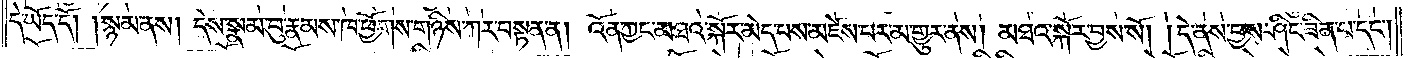དེ་ཡོད་དོ། །སྙམ་ནས། དེས་སྣམ་བུ་རྣམས་ཁ་ཕྱོགས་གཉིས་ཀར་བསྟན་ན། འོན་ཀྱང་མཐའ་སྐོར་མེད་པས་མཛེས་པར་མ་གྱུར་ནས། མཐའ་སྐོར་བྱས་སོ། །དེ་ནས་བྱས་ཤིང་ཟིན་པ་དང༌།
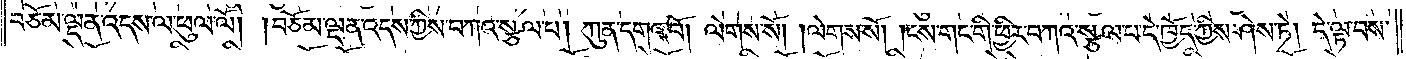བཅོམ་ལྡན་འདས་ལ་ཕུལ་ལོ། །བཅོམ་ལྡན་འདས་ཀྱིས་བཀའ་སྩལ་པ། ཀུན་དགའ་བོ། ལེགས་སོ། །ལེགས་སོ། །ངས་གང་གི་ཕྱིར་བཀའ་སྩལ་པ་དེ་ཁྱོད་ཀྱིས་ཤེས་ཏེ། དེ་ལྟ་བས་
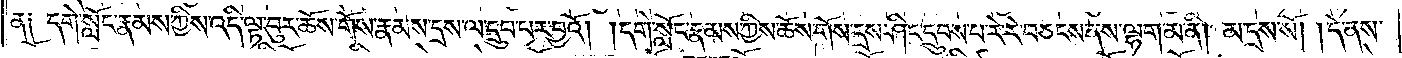ན། དགེ་སློང་རྣམས་ཀྱིས་འདི་ལྟ་བུར་ཆོས་གོས་རྣམས་དྲས་ལ་དྲུབ་པར་བྱའོ། །དགེ་སློང་རྣམས་ཀྱིས་ཆོས་གོས་དྲས་ཤིང་དྲུབས་པ་རེ་རེ་བཅངས་ནས་ལྷག་མ་ནི། མ་དྲས་སོ། །དེ་ནས་
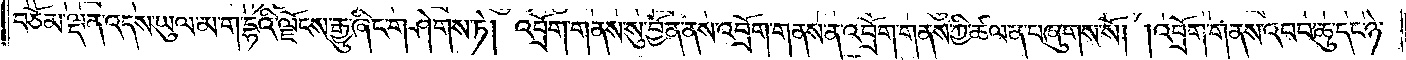བཅོམ་ལྡན་འདས་ཡུལ་མ་ག་དྷའི་ལྗོངས་རྒྱུ་ཞིང་གཤེགས་ཏེ། འབྲོག་གནས་སུ་བྱོན་ནས་འབྲོག་གནས་ན་འབྲོག་གནས་ཀྱི་ཚལ་ན་བཞུགས་སོ། །འབྲོག་གནས་འབབ་ཆུ་དང་ཉེ་
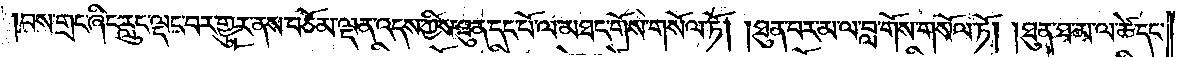བས་གྲང་ཞིང་རླུང་ལྡང་བར་གྱུར་ནས་བཅོམ་ལྡན་འདས་ཀྱིས་ཐུན་དང་པོ་ལ་མཐང་གོས་གསོལ་ཏོ། །ཐུན་བར་མ་ལ་བླ་གོས་གསོལ་ཏོ། །ཐུན་ཐ་མ་ལ་ཚེ་དང་
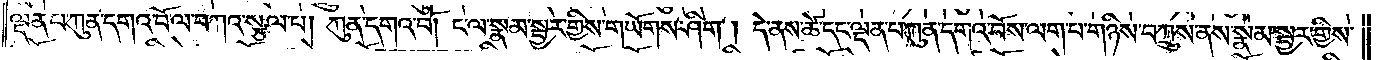ལྡན་པ་ཀུན་དགའ་བོ་ལ་བཀའ་སྩལ་པ། ཀུན་དགའ་བོ། ང་ལ་སྣམ་སྦྱར་གྱིས་གཡོགས་ཤིག། དེ་ནས་ཚེ་དང་ལྡན་པ་ཀུན་དགའ་བོས་ལག་པ་གཉིས་བཀྲུས་ནས་སྣམ་སྦྱར་གྱིས་
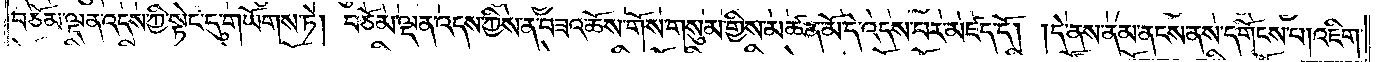བཅོམ་ལྡན་འདས་ཀྱི་སྟེང་དུ་གཡོགས་ཏེ། བཅོམ་ལྡན་འདས་ཀྱིས་ན་བཟའ་ཆོས་གོས་གསུམ་གྱིས་མཚན་མོ་དེ་འདས་པར་མཛད་དོ། །དེ་ནས་ནམ་ནངས་ནས་དགོངས་པ། འཇིག་
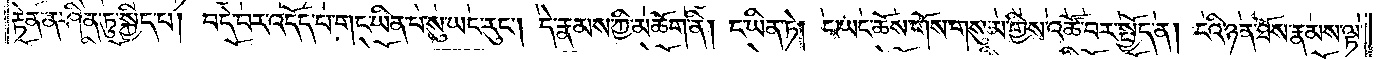རྟེན་ན་ཤིན་ཏུ་སྐྱིད་པ། བདེ་བར་འདོད་པ་གང་ཡིན་པ་སུ་ཡང་རུང༌། དེ་རྣམས་ཀྱི་མཆོག་ནི། ང་ཡིན་ཏེ། ང་ཡང་ཆོས་གོས་གསུམ་གྱིས་འཚོ་བར་སྤྱོད་ན། ངའི་ཉན་ཐོས་རྣམས་ལྟ་
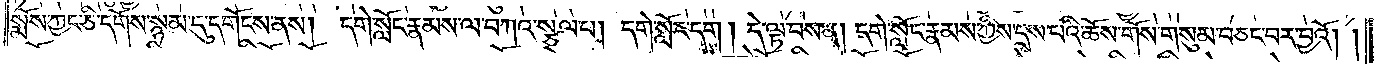སྨོས་ཀྱང་ཅི་དགོས་སྙམ་དུ་དགོངས་ནས། དགེ་སློང་རྣམས་ལ་བཀའ་སྩལ་པ། དགེ་སློང་དག། དེ་ལྟ་བས་ན། དགེ་སློང་རྣམས་ཀྱིས་དྲས་པའི་ཆོས་གོས་གསུམ་བཅང་བར་བྱའོ། །
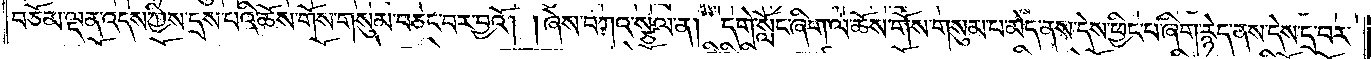བཅོམ་ལྡན་འདས་ཀྱིས་དྲས་པའི་ཆོས་གོས་གསུམ་བཅང་བར་བྱའོ། །ཞེས་བཀའ་སྩལ་ན། དགེ་སློང་ཞིག་ལ་ཆོས་གོས་གསུམ་པ་མེད་ནས་དེས་ཕྱིང་པ་ཞིག་རྙེད་ནས་དེས་དྲ་བར་
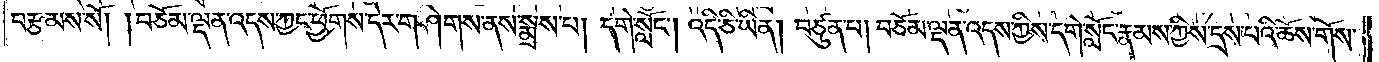བརྩམས་སོ། །བཅོམ་ལྡན་འདས་ཀྱང་ཕྱོགས་དེར་གཤེགས་ནས་སྨྲས་པ། དགེ་སློང༌། འདི་ཅི་ཡིན། བཙུན་པ། བཅོམ་ལྡན་འདས་ཀྱིས་དགེ་སློང་རྣམས་ཀྱིས་དྲས་པའི་ཆོས་གོས་
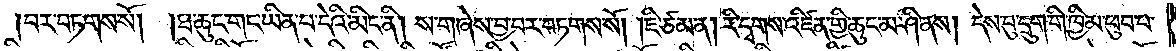བར་བཏགས་སོ། །ཐ་ཆུང་གང་ཡིན་པ་དེའི་མིང་ནི། ས་ག་ཞེས་བྱ་བར་བཏགས་སོ། །ཇི་ཙམ་ན། རི་དྭགས་འཛིན་གྱི་ཆུང་མ་ཤི་ནས། དེས་བུ་དྲུག་གི་ཁྱིམ་ཕུབ་པ་
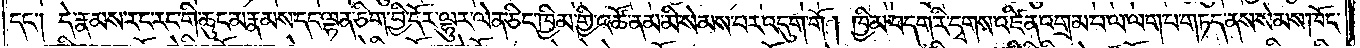དང༌། དེ་རྣམས་རང་རང་གི་ཆུང་མ་རྣམས་དང་ལྷན་ཅིག་བྱི་དོར་ལྷུར་ལེན་ཅིང་ཁྱིམ་གྱི་འཚོ་ནམ་མི་སེམས་པར་འདུག་གོ། ཁྱིམ་བདག་རི་དྭགས་འཛིན་འགྲམ་པ་ལ་ལག་པ་གཏད་ནས་སེམས་ཁོང་
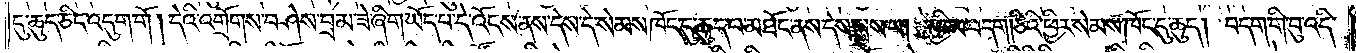དུ་ཆུད་ཅིང་འདུག་གོ། དེའི་འགྲོགས་བཤེས་བྲམ་ཟེ་ཞིག་ཡོད་པ་དེ་འོངས་ནས་དེས་དེ་སེམས་ཁོང་དུ་ཆུད་པ་མཐོང་ནས་དེས་སྨྲས་པ། ཁྱིམ་བདག། ཅིའི་ཕྱིར་སེམས་ཁོང་དུ་ཆུད། བདག་གི་བུ་འདི་
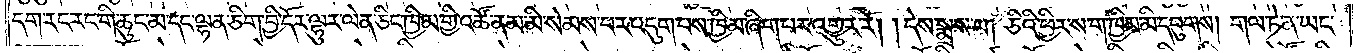དག་རང་རང་གི་ཆུང་མ་དང་ལྷན་ཅིག་བྱི་དོར་ལྷུར་ལེན་ཅིང་ཁྱིམ་གྱི་འཚོ་ནམ་མི་སེམས་པར་འདུག་པས་ཁྱིམ་ཞིག་པར་འགྱུར་རོ། །དེས་སྨྲས་པ། ཅིའི་ཕྱིར་ས་ག་ཁྱིམ་མི་དབུགས། གལ་ཏེ་ན་ཡང་
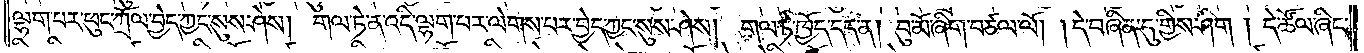ལྷག་པར་ཕུང་ཀྲོལ་བྱེད་ཀྱང་སུས་ཤེས། གལ་ཏེ་ན་འདི་ལྷག་པར་ལེགས་པར་བྱེད་ཀྱང་སུས་ཤེས། གལ་ཏེ་ཁྱོད་དད་ན། བུ་མོ་ཞིག་བཙལ་ལོ། །དེ་བཞིན་དུ་གྱིས་ཤིག། དེ་ཚོལ་ཞིང་
